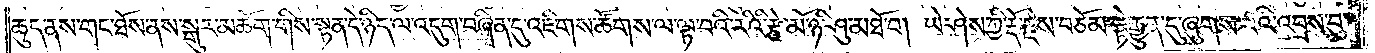ཆུད་ནས་གང་ཐོས་ནས་སྒུར་མཆོག་གིས་སྟན་དེ་ཉིད་ལ་འདུག་བཞིན་དུ་འཇིགས་ཚོགས་ལ་ལྟ་བའི་རིའི་རྩེ་མོ་ཉི་ཤུ་མཐོ་བ། ཡེ་ཤེས་ཀྱི་རྡོ་རྗེས་བཅོམ་སྟེ་རྒྱུན་དུ་ཞུགས་པའི་འབྲས་བུ་
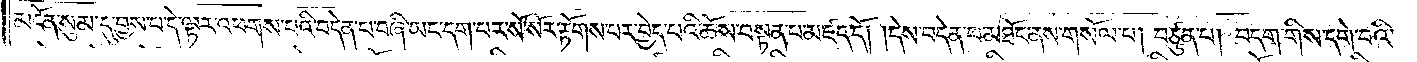མངོན་སུམ་དུ་བྱས་པ་དེ་ལྟར་འཕགས་པའི་བདེན་པ་བཞི་ཡང་དག་པར་སོ་སོར་རྟོགས་པར་བྱེད་པའི་ཆོས་བསྟན་པ་མཛད་དོ། །དེས་བདེན་པ་མཐོང་ནས་གསོལ་པ། བཙུན་པ། བདག་གིས་དགེ་བའི་
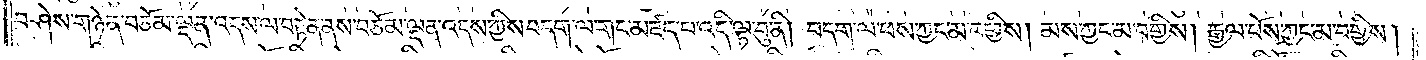བཤེས་གཉེན་བཅོམ་ལྡན་འདས་ལ་བརྟེན་ནས་བཅོམ་ལྡན་འདས་ཀྱིས་བདག་ལ་གང་མཛད་པ་འདི་ལྟ་བུ་ནི། བདག་ལ་ཕས་ཀྱང་མ་བགྱིས། མས་ཀྱང་མ་བགྱིས། རྒྱལ་པོས་ཀྱང་མ་བགྱིས།
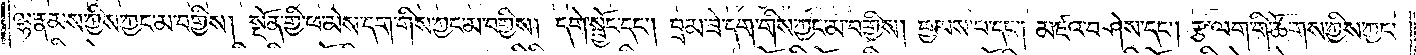ལྷ་རྣམས་ཀྱིས་ཀྱང་མ་བགྱིས། སྔོན་གྱི་ཕ་མེས་དག་གིས་ཀྱང་མ་བགྱིས། དགེ་སྦྱོང་དང༌། བྲམ་ཟེ་དག་གིས་ཀྱང་མ་བགྱིས། བྱམས་པ་དང༌། མཛའ་བཤེས་དང༌། རྩ་ལག་གི་ཚོགས་ཀྱིས་ཀྱང་
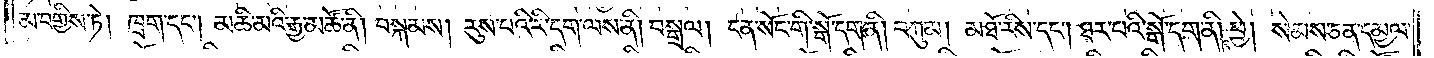མ་བགྱིས་ཏེ། ཁྲག་དང༌། མཆི་མའི་རྒྱ་མཚོ་ནི། བསྐམས། རུས་པའི་རི་དག་ལས་ནི། བསྒྲལ། ངན་སོང་གི་སྒོ་དག་ནི། བཀུམ། མཐོ་རིས་དང༌། ཐར་པའི་སྒོ་དག་ནི། ཕྱེ། སེམས་ཅན་དམྱལ་
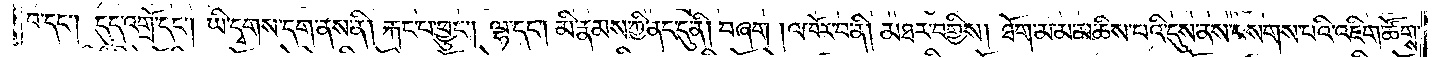བ་དང༌། དུད་འགྲོ་དང༌། ཡི་དྭགས་དག་ནས་ནི། རྐང་པ་ཕྱུང༌། ལྷ་དང༌། མི་རྣམས་ཀྱི་ནང་དུ་ནི། བཞག །འཁོར་བ་ནི། མཐར་བགྱིས། ཐོག་མ་མ་མཆིས་པའི་དུས་ནས་བསགས་པའི་འཇིག་ཚོགས་
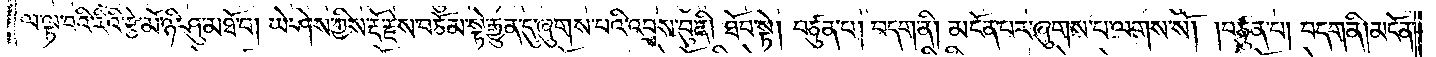ལ་ལྟ་བའི་རིའི་རྩེ་མོ་ཉི་ཤུ་མཐོ་བ། ཡེ་ཤེས་ཀྱིས་རྡོ་རྗེས་བཅོམ་སྟེ་རྒྱུན་དུ་ཞུགས་པའི་འབྲས་བུ་ནི། ཐོབ་སྟེ། བཙུན་པ། བདག་ནི། མངོན་པར་ཞུགས་པ་ལགས་སོ། །བཙུན་པ། བདག་ནི། མངོན་
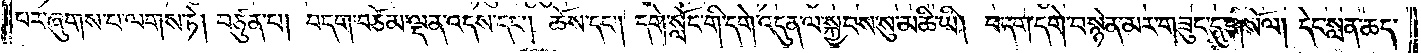པར་ཞུགས་པ་ལགས་ཏེ། བཙུན་པ། བདག་བཅོམ་ལྡན་འདས་དང༌། ཆོས་དང༌། དགེ་སློང་གི་དགེ་འདུན་ལ་སྐྱབས་སུ་མཆི་ཡི། བདག་དགེ་བསྙེན་མར་གཟུང་དུ་གསོལ། དེང་སླན་ཆད་
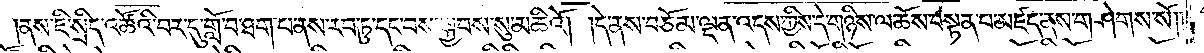ནས་ཇི་སྲིད་འཚོའི་བར་དུ་གློ་བ་ཐག་པ་ནས་རབ་ཏུ་དང་བས་སྐྱབས་སུ་མཆིའོ། །དེ་ནས་བཅོམ་ལྡན་འདས་ཀྱིས་དེ་གཉིས་ལ་ཆོས་བསྟན་པ་མཛད་ནས་གཤེགས་སོ༎
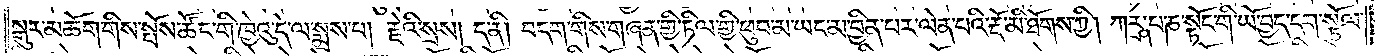སྒུར་མཆོག་གིས་སྤོས་ཚོང་གི་ཁྱེའུ་དེ་ལ་སྨྲས་པ། རྗེའི་སྲས། ད་ནི། བདག་གིས་གཞན་གྱི་ཏིལ་གྱི་ཕུབ་མ་ཡང་མ་བྱིན་པར་ལེན་པའི་རྡོ་མི་ཐོགས་ཀྱི། ཀརྵ་པ་ཎ་སྟོང་གི་ཡོ་བྱད་དག་སྩོལ་
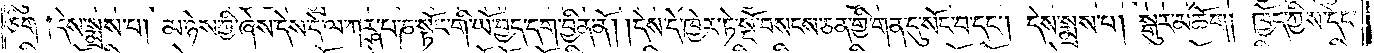ཅིག །དེས་སྨྲས་པ། མ་ཉེས་ཀྱི་ཞེས་དེས་དེ་ལ་ཀཪྴ་པ་ཎ་སྟོང་གི་ཡོ་བྱད་དག་བྱིན་ནོ། །དེས་དེ་ཁྱེར་ཏེ་སྔོ་བསངས་ཅན་གྱི་གན་དུ་སོང་བ་དང༌། དེས་སྨྲས་པ། སྒུར་མཆོག། ཁྱོད་ཀྱིས་དེང་
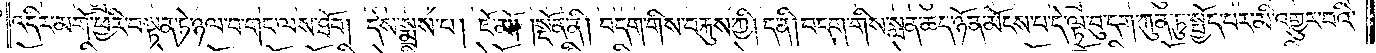འདིར་མགོ་ཕྱིར་བསྟན་ཏེ་ཉལ་བ་གང་ལས་ཐོབ། དེས་སྨྲས་པ། ཇོ་མོ། །སྔོན་ནི། བདག་གིས་བརྐུས་ཀྱི། ད་ནི། བདག་གིས་སླན་ཆད་ཉོན་མོངས་པ་དེ་ལྟ་བུ་དག་ཀུན་ཏུ་སྤྱོད་པར་མི་འགྱུར་བའི་
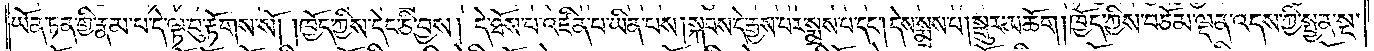ཡོན་ཏན་གྱི་རྣམ་པ་དེ་ལྟ་བུ་རྟོགས་སོ། །ཁྱོད་ཀྱིས་དེང་ཅི་བྱས། དེ་ཐོས་པ་འཛིན་པ་ཡིན་པས། སྐབས་དེ་རྒྱས་པར་སྨྲས་པ་དང༌། དེས་སྨྲས་པ། སྒུར་མཆོག །ཁྱོད་ཀྱིས་བཅོམ་ལྡན་འདས་ཀྱི་སྤྱན་སྔ་
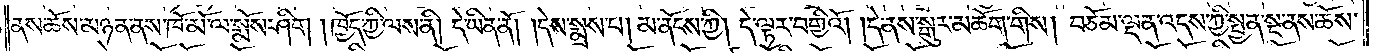ནས་ཆོས་མཉན་ནས་ཁོ་མོ་ལ་སྨོས་ཤིག །ཁྱོད་ཀྱི་ལས་ནི། དེ་ཡིན་ནོ། །དེས་སྨྲས་པ། མ་ནོངས་ཀྱི། དེ་ལྟར་བགྱིའོ། །དེ་ནས་སྒུར་མཆོག་གིས། བཅོམ་ལྡན་འདས་ཀྱི་སྤྱན་སྔ་ནས་ཆོས་
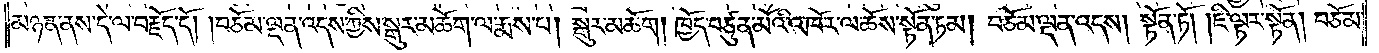མཉན་ནས་དེ་ལ་བརྗོད་དོ། །བཅོམ་ལྡན་འདས་ཀྱིས་སྒུར་མཆོག་ལ་རྨས་པ། སྒུར་མཆོག། ཁྱོད་བཙུན་མོའི་འཁོར་ལ་ཆོས་སྟོན་ཏམ། བཅོམ་ལྡན་འདས། སྟོན་ཏོ། ཇི་ལྟར་སྟོན། བཅོམ་
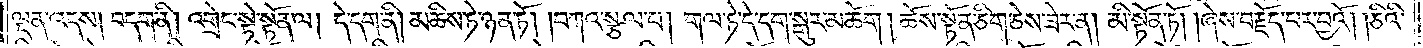ལྡན་འདས། བདག་ནི། འགྲེང་སྟེ་སྟོན་ལ། དེ་དག་ནི། མཆིས་ཏེ་ཉན་ཏོ། །བཀའ་སྩལ་པ། གལ་ཏེ་དེ་དག་སྒུར་མཆོག །ཆོས་སྟོན་ཅིག་ཅེས་ཟེར་ན། མི་སྟོན་ཏོ། །ཞེས་བརྗོད་པར་བྱའོ། །ཅིའི་
